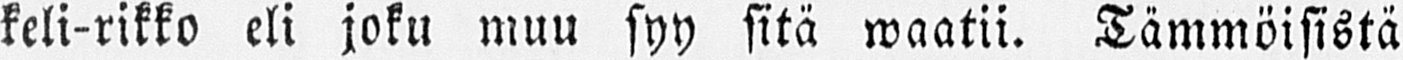keli-rikko eli joku muu syy sitä waatii. Tämmöisistä
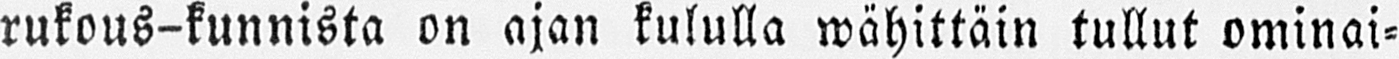rukous-kunnista on ajan kululla wähittäin tullut ominai-
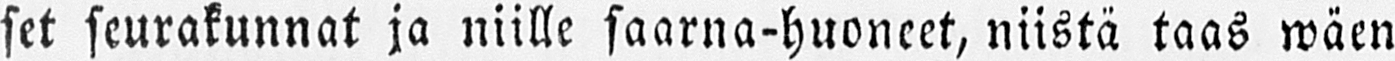set seurakunnat ja niille saarna-huoneet, niistä taas wäen
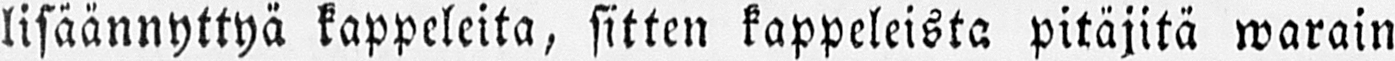lisäännyttyä kappeleita, sitten kappeleista pitäjitä warain
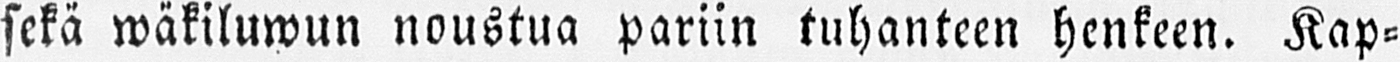sekä wäkiluwun noustua pariin tuhanteen henkeen. Kap-
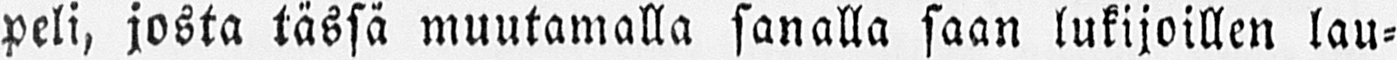peli, josta tässä muutamalla sanalla saan lukijoillen lau-
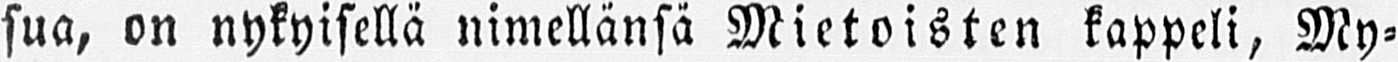sua, on nykyisellä nimellänsä Mietoisten kappeli, My-
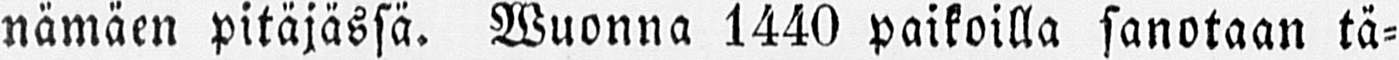nämäen pitäjässä. Wuonna 1440 paikoilla sanotaan tä-
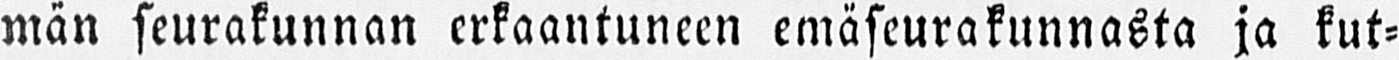män seurakunnan erkaantuneen emäseurakunnasta ja kut-
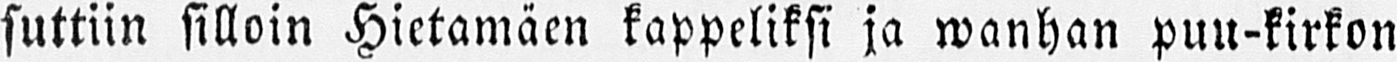suttiin silloin Hietamäen kappeliksi ja wanhan puu-kirkon
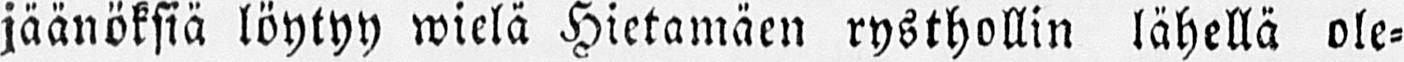jäänöksiä löytyy wielä Hietamäen rysthollin lähellä ole-
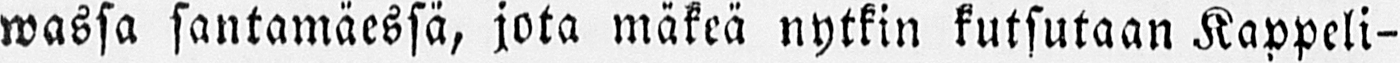wassa santamäessä, jota mäkeä nytkin kutsutaan Kappeli-
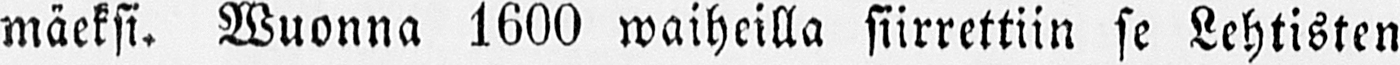mäeksi. Wuonna 1600 waiheilla siirrettiin se Lehtisten
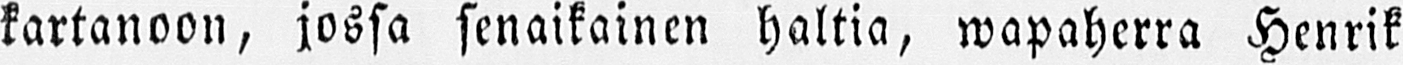kartanoon, jossa senaikainen haltia, wapaherra Henrik
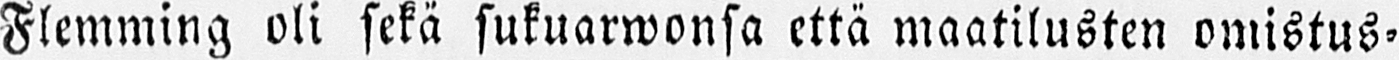Flemming oli sekä sukuarwonsa että maatilusten omistus-
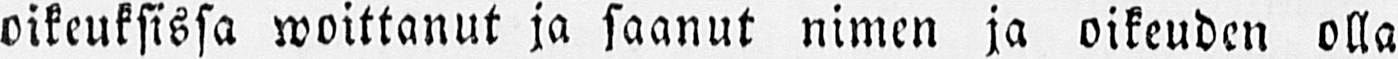oikeuksissa woittanut ja saanut nimen ja oikeuden olla
